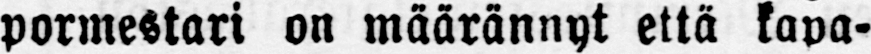pormestari on määrännyt että kapa-
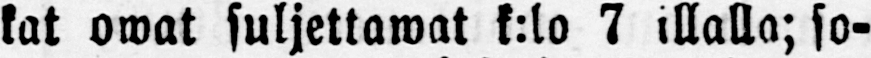kat owat suljettawat k:lo 7 illalla; so-
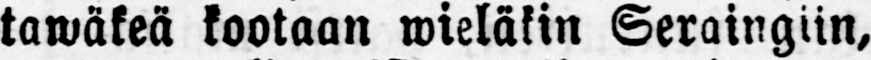tawäkeä kootaan wieläkin Seraingiin,
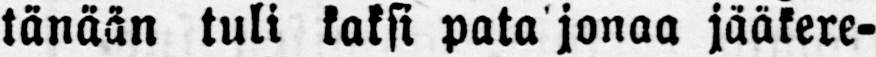tänään tuli kaksi pata jonaa jääkere-
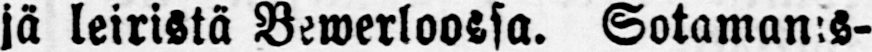jä leiristä Bewerloossa. Sotamanis-
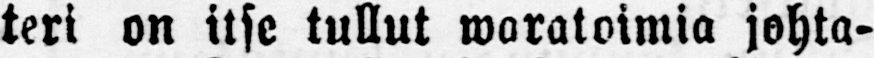teri on itse tullut waratoimia johta-
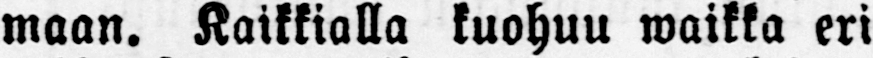maan. Kaikkialla kuohuu waikka eri
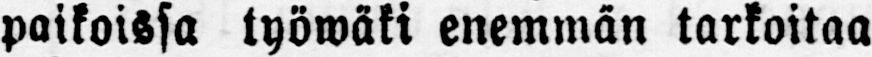paikoissa työwäki enemmän tarkoitaa
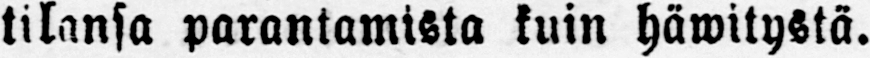tilansa parantamisia kuin häwitystä.
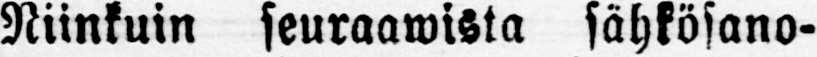Niinkuin seuraawista sähkösano-
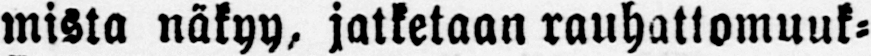mista näkyy, jatketaan rauhattomuuk-
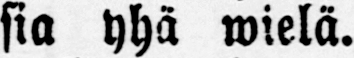sia yhä wielä.
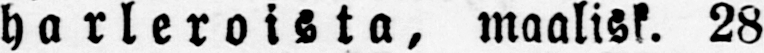Charleroista, maalisk. 28
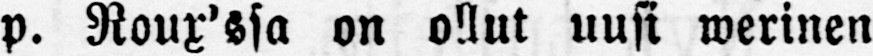p. Roux'ssa on ollut uusi werinen
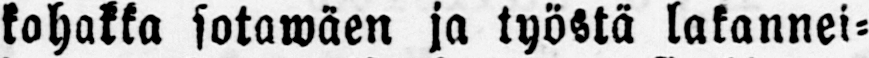kahakka sotawäen ja työstä lakannei-
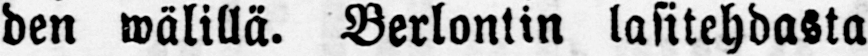den wälillä. Berlontin lasitehdasta
